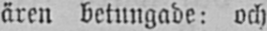ären betungade: och
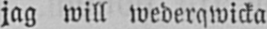jag will wederqwicka
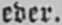eder.
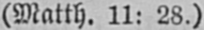(Matth. 11: 28.)
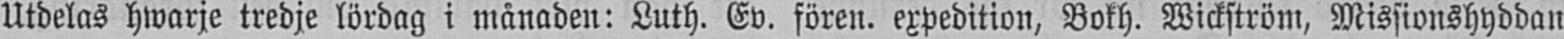Utdelas hwarje tredje lördag i månaden: Luth. Ev. fören. expedition, Bokh. Wickström, Missionshyddan
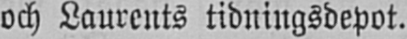och Laurents tidningsdepot.
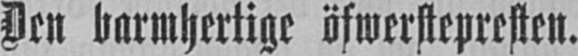Den barmhertige öfwerstepresten.
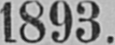1893.
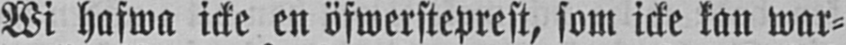Wi hafwa icke en öfwersteprest, som icke kan war-
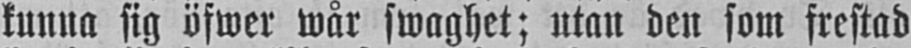kunna sig öfwer wår swaghet; utan den som frestad
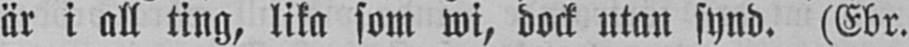är i all ting, lika som wi, dock utan synd. (Ebr.
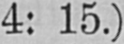4: 15.)
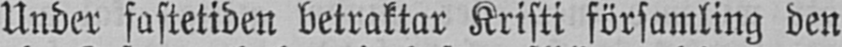Under fastetiden betraktar Kristi församling den
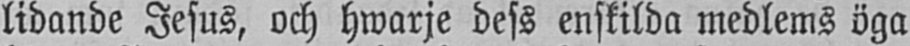lidande Jesus, och hwarje dess enskilda medlems öga
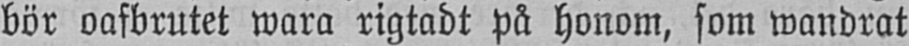bör oafbrutet wara rigtadt på honom, som wandrat
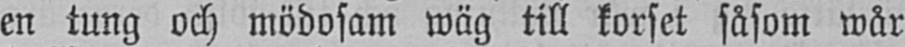en tung och mödosam wäg till korset såsom wår
